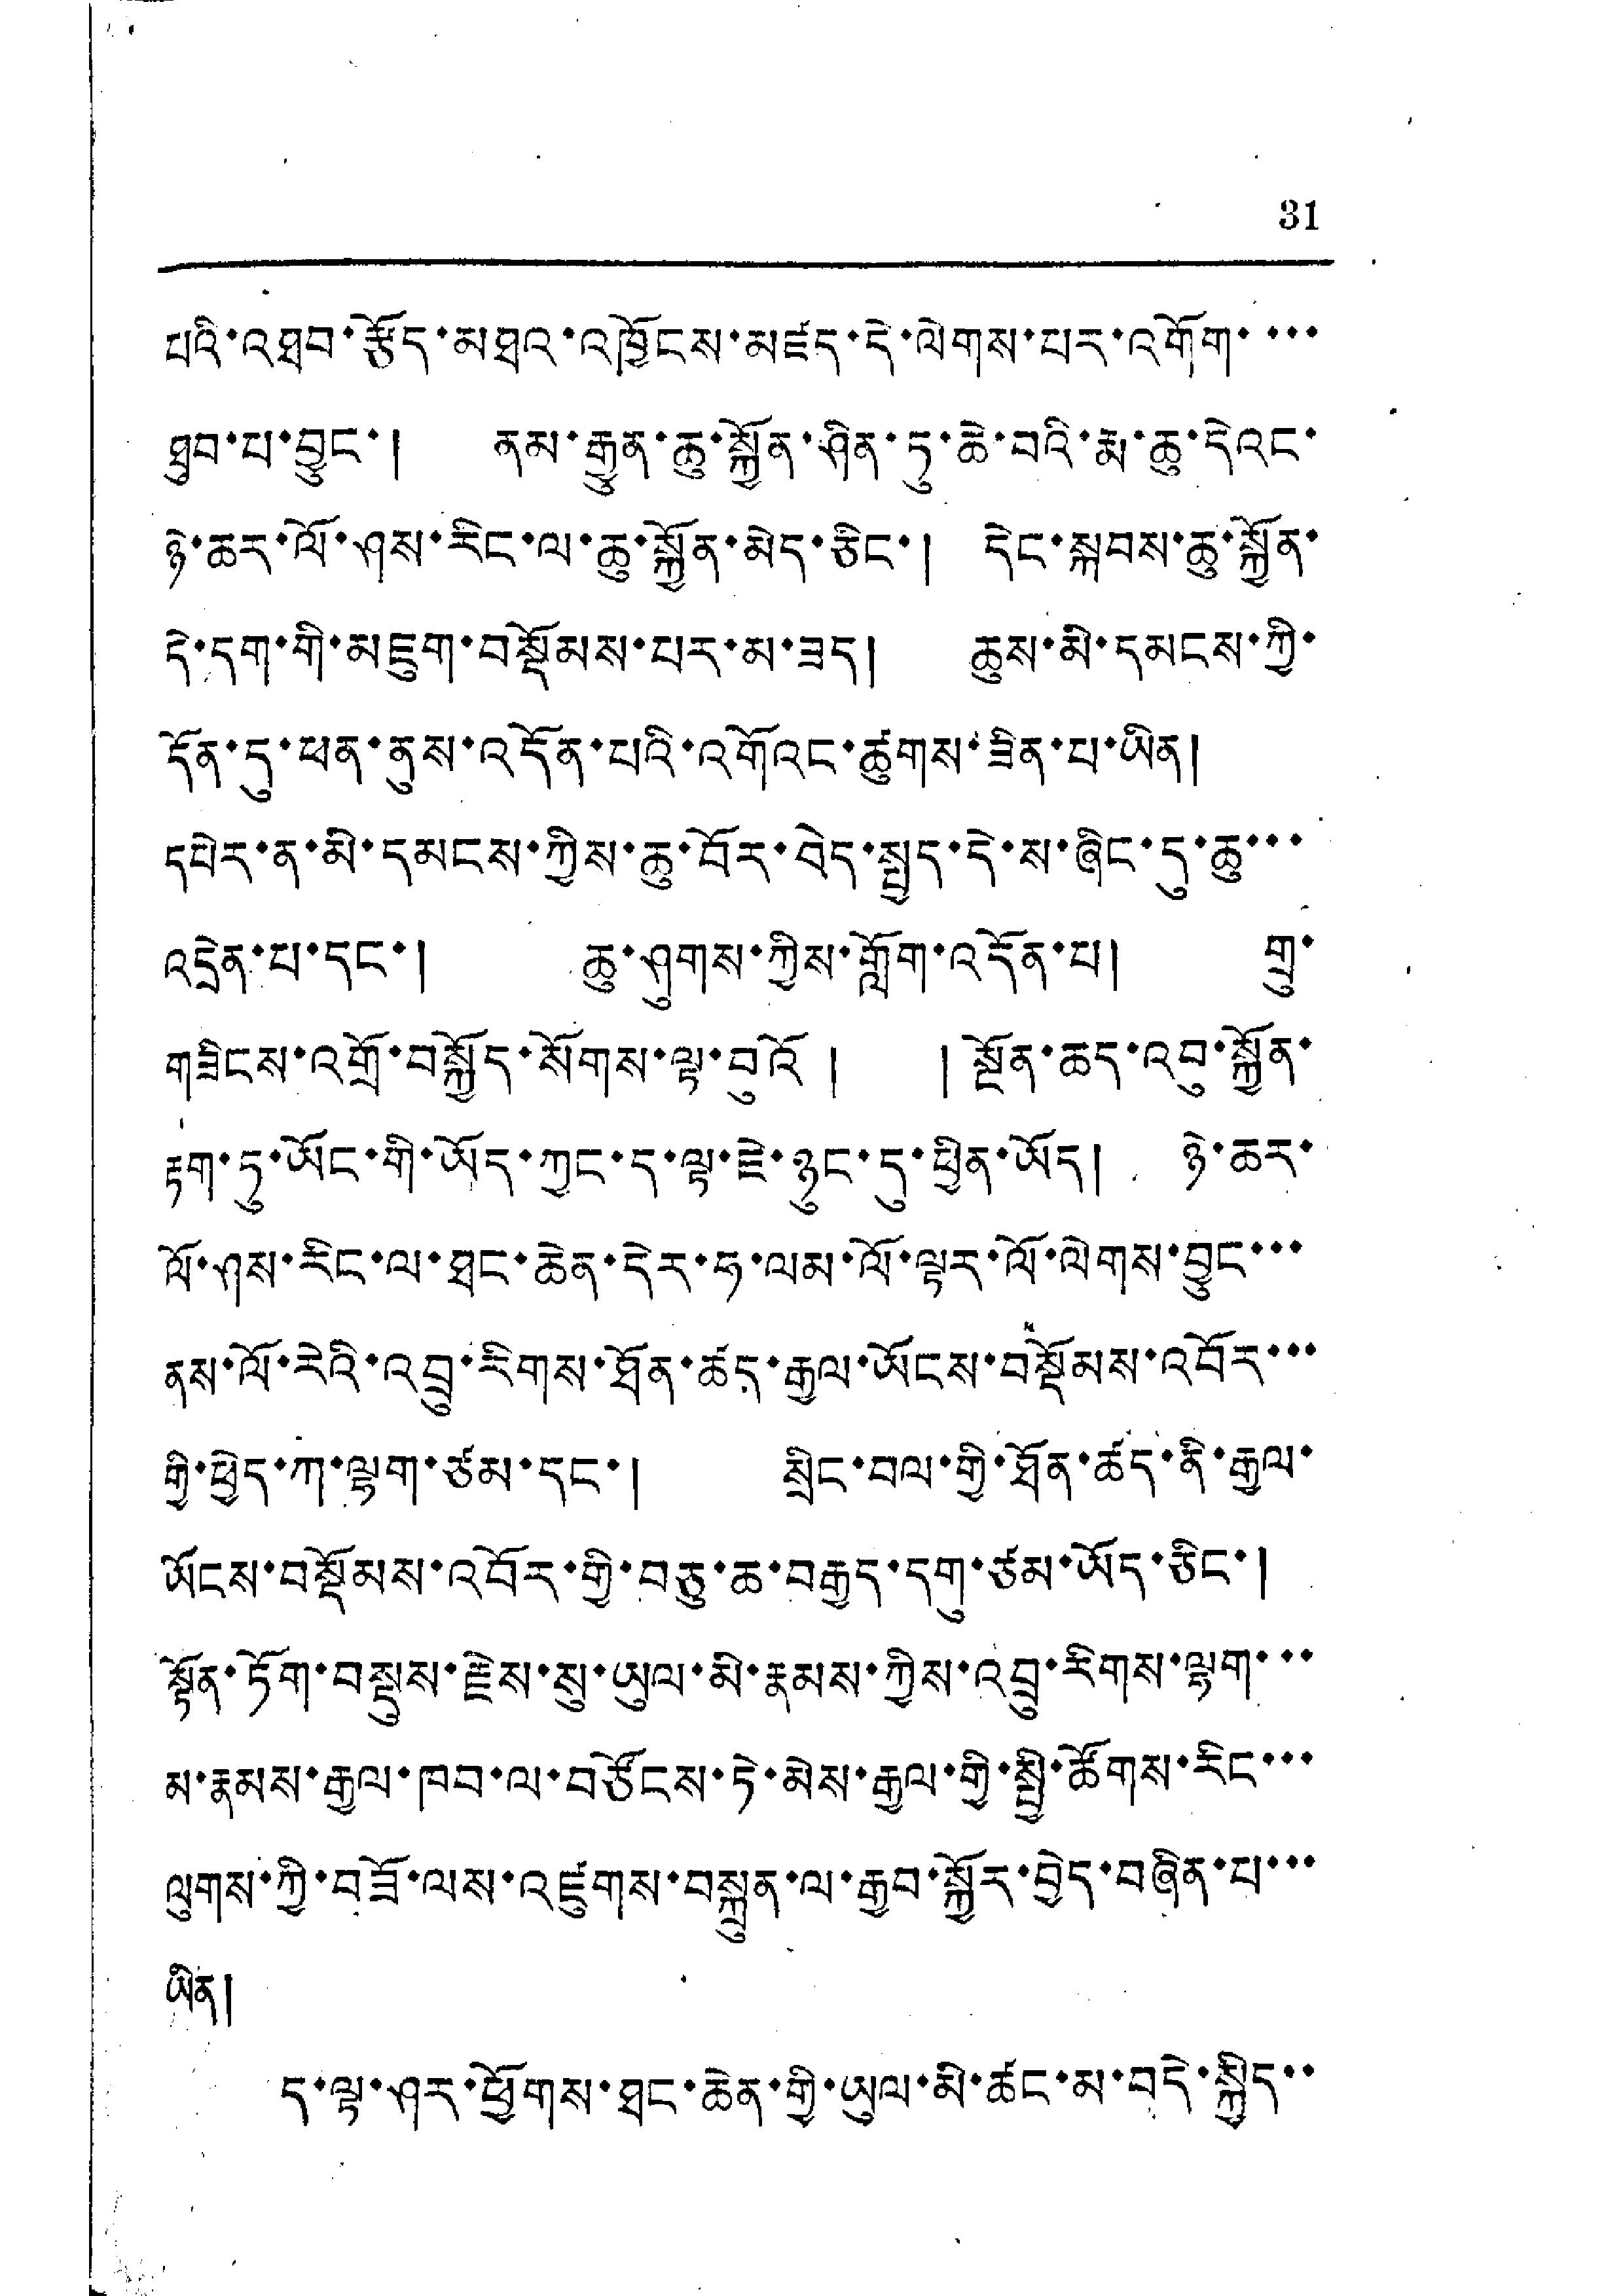31
པའི་འཐབ་རྩོད་མཐའ་འཁྱོངས་མཛད་དེ་ལེགས་པར་འགོག་་་་
ཐུབ་པ་བྱུང་། ནམ་རྒྱུན་ཆུ་སྐྱོན་ཤིན་ཏུ་ཆེ་བའི་རྨ་ཆུ་དེའང་
ཉེ་ཆར་ལོ་ཤས་རིང་ལ་ཆུ་སྐྱོན་མེད་ཅིང་། དེང་སྐབས་ཆུ་སྐྱོན་
དེ་དག་གི་མཇུག་བསྡོམས་པར་མ་ཟད། ཆུས་མི་དམངས་ཀྱི་
དོན་དུ་ཕན་ནུས་འདོན་པའི་འགོའང་ཚུགས་ཟིན་པ་ཡིན།
དཔེར་ན་མི་དམངས་ཀྱིས་ཆུ་བོར་བེད་སྤྱད་དེ་ས་ཞིང་དུ་ཆུ་་་
འདྲེན་པ་དང་། ཆུ་ཤུགས་ཀྱིས་ཀློག་འདོན་པ། གྲུ་
གཟིངས་འགྲོ་བསྐྱོད་སོགས་ལྟ་བུའོ ། ། སྔོན་ཆད་འབུ་སྐྱོན་
རྟག་ཏུ་ཡོང་གི་ཡོད་ཀྱང་ད་ལྟ་ཇེ་ཉུང་དུ་ཕྱིན་ཡོད། ཉེ་ཆར་
ལོ་ཤས་རིང་ལ་ཐང་ཆེན་དེར་ཧ་ལམ་ལོ་ལྟར་ལོ་ལེགས་བྱུང་་་
ནས་ལོ་རེའི་འབྲུ་རིགས་ཐོན་ཚད་རྒྱལ་ཡོངས་བསྡོམས་འབོར་་་
གྱི་ཕྱེད་ཀ་ལྷག་ཙམ་དང་། སྲིང་བལ་གྱི་ཐོན་ཚད་ནི་རྒྱལ་
ཡོངས་བསྡོམས་འབོར་གྱི་བཅུ་ཆ་བརྒྱད་དགུ་ཙམ་ཡོད་ཅིང་།
སྟོན་ཏོག་བསྡུས་རྗེས་སུ་ཡུལ་མི་རྣམས་ཀྱིས་འབྲུ་རིགས་ལྷག་་་
མ་རྣམས་རྒྱལ་ཁབ་ལ་བཅོངས་ཏེ་མེས་རྒྱལ་གྱི་སྤྱི་ཚོགས་རིང་་་
ལུགས་ཀྱི་བཟོ་ལས་འཛུགས་བསྐྲུན་ལ་རྒྱབ་སྐྱོར་བྱེད་བཞིན་པ་་་
ཡིན།
ད་ལྟ་ཤར་ཕྱོགས་ཐང་ཆེན་གྱི་ཡུལ་མི་ཚང་མ་བདེ་སྐྱིད་་
